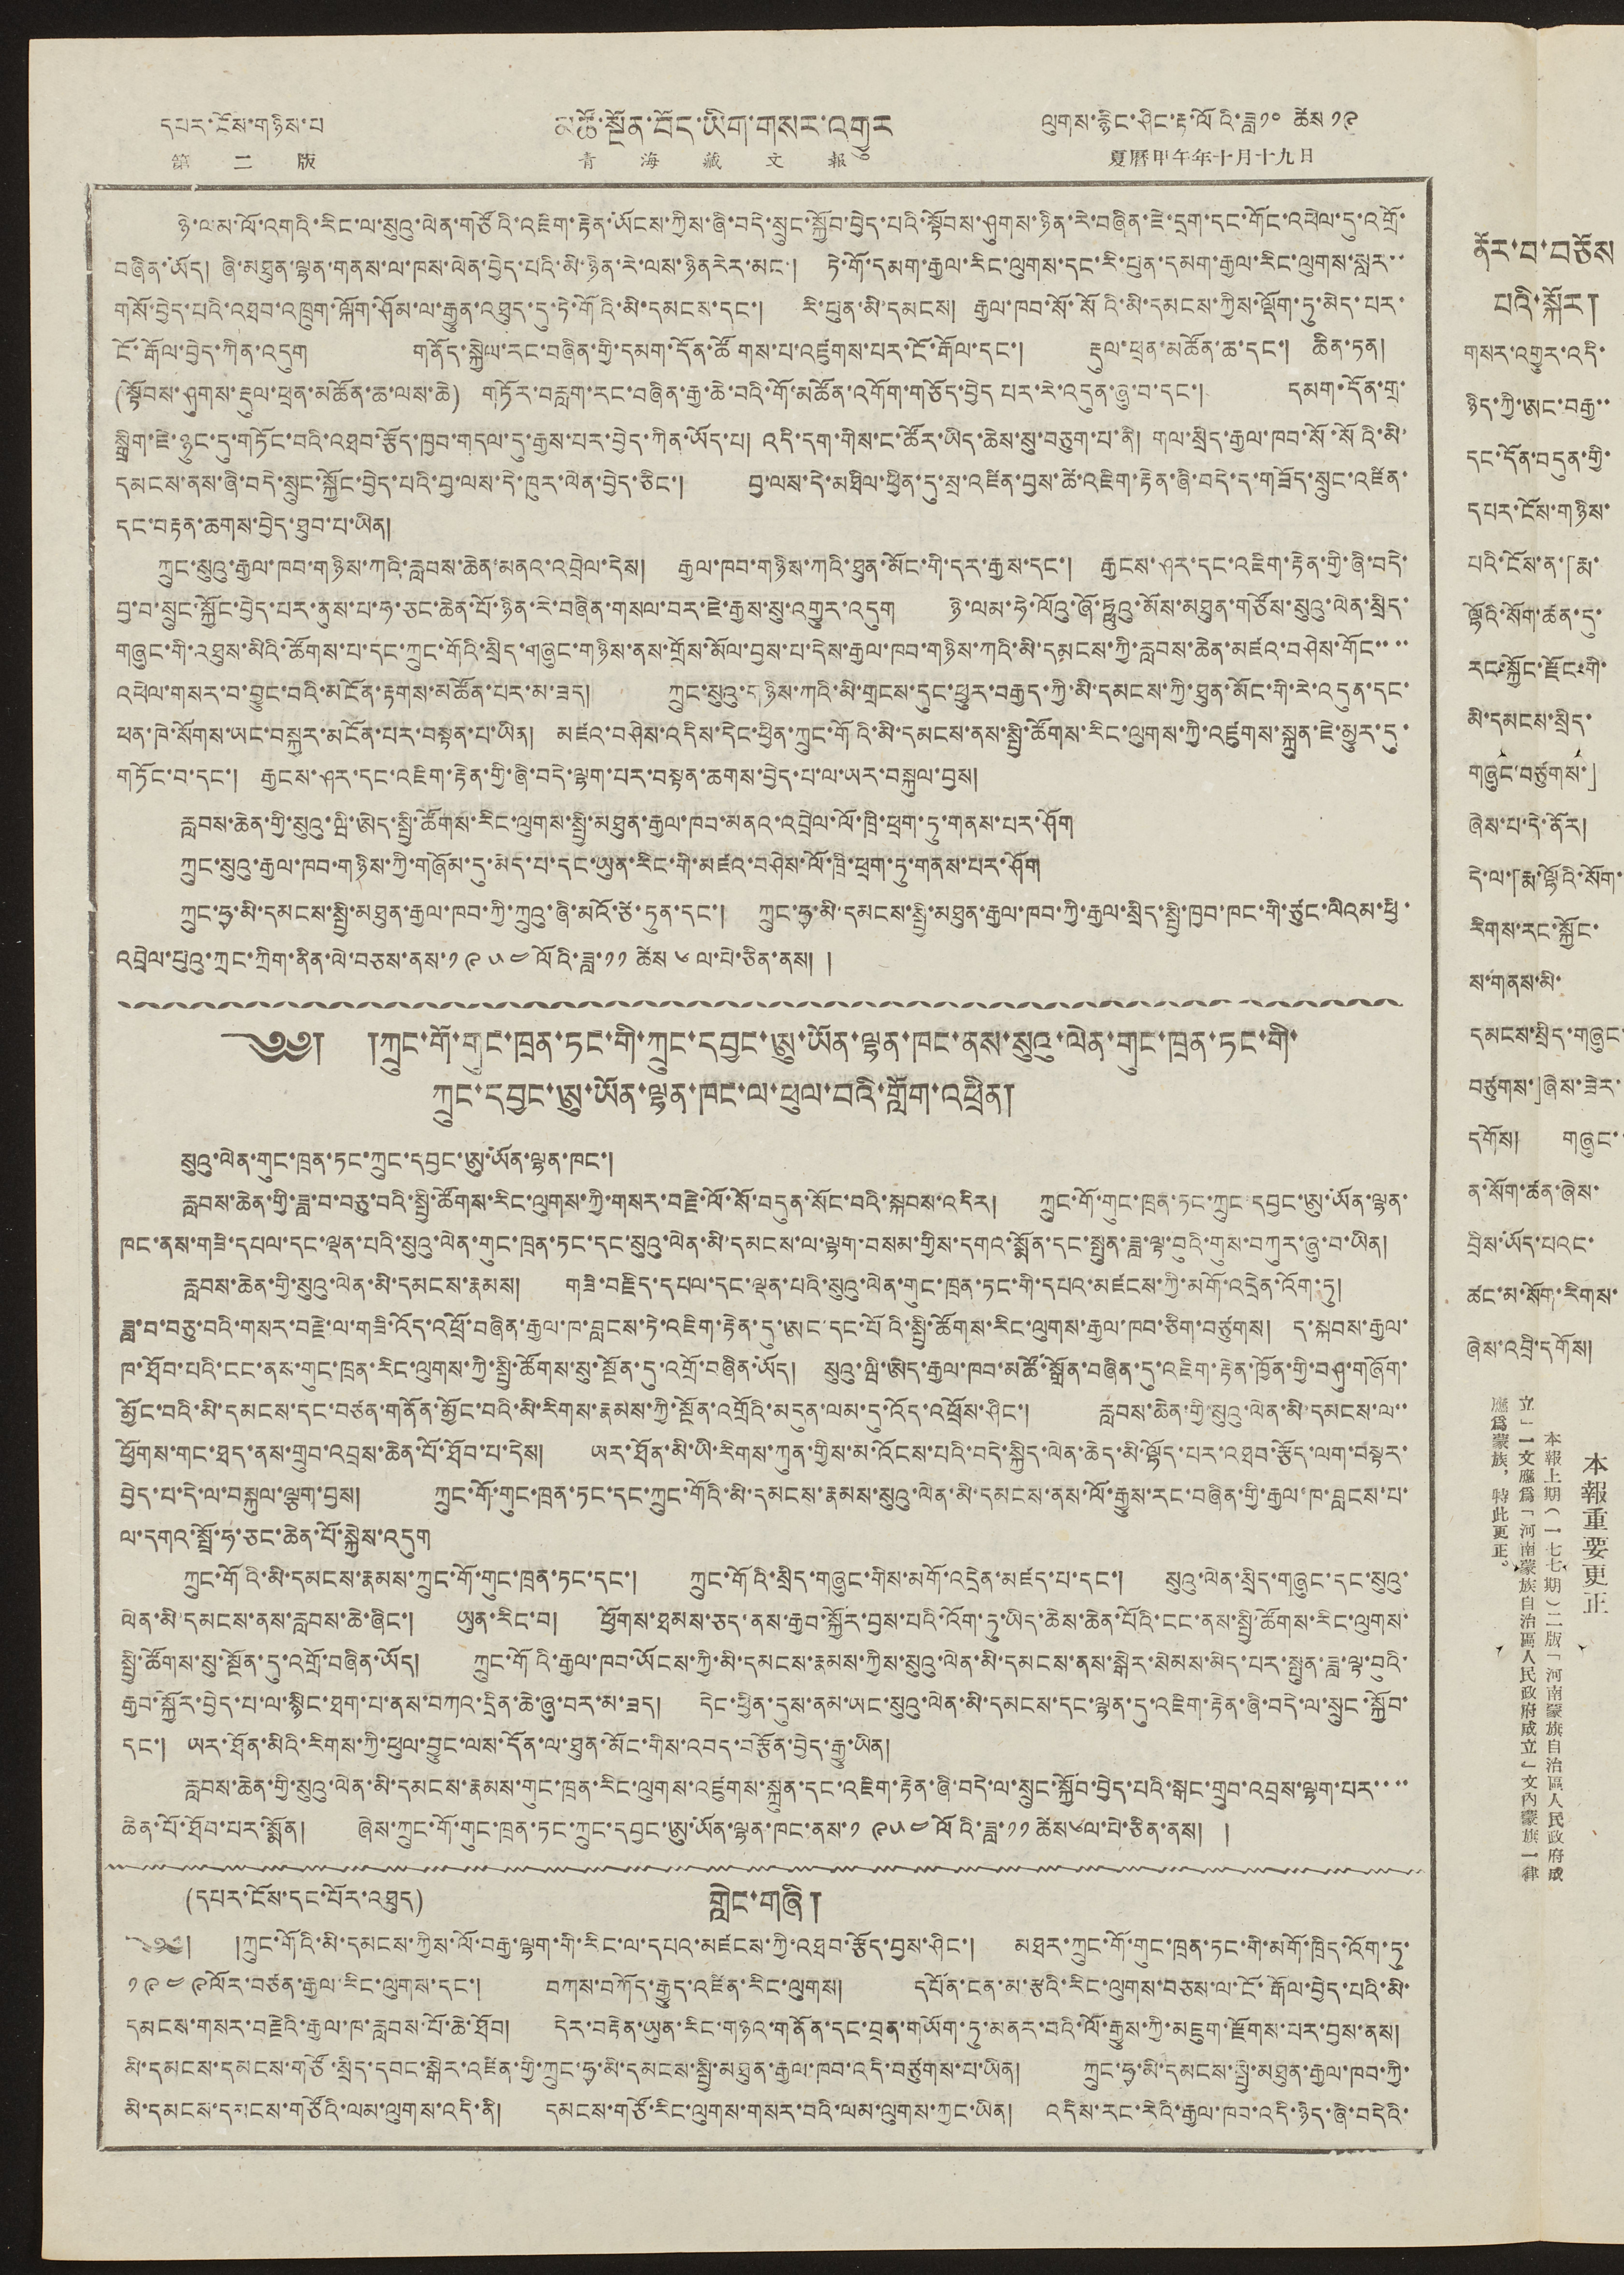དཔར་ངོས་གཉིས་པ མཚོ་སྔོན་བོད་ཡིག་གསར་འགྱུར ལུགས་རྙིང་ཤིང་རྟ་ལོའི་ཟླ༡༠ ཚེས ༡༩
第 二 版 青 海 藏 文 報 夏曆甲午年十月十九日
ཉེ་ལམ་ལོ་འགའི་རིང་ལ་སུའུ་ལེན་གཙོའི་འཇིག་རྟེན་ཡོངས་ཀྱིས་ཞི་བདེ་སྲུང་སྐྱོབ་བྱེད་པའི་སྟོབས་ཤུགས་ཉིན་རེ་བཞིན་ཇེ་དྲག་དང་གོང་འཕེལ་དུ་འགྲོ་
བཞིན་ཡོད། ཞི་མཐུན་ལྷན་གནས་ལ་ཁས་ལེན་བྱེད་པའི་མི་ཉིན་རེ་ལས་ཉིན རེར་མང་། ཏེ་གོ་དམག་རྒྱལ་རིང་ལུགས་དང་རི་ཕུན་དམག་རྒྱལ་རིང་ལུགས་སླར་་
གསོ་བྱེད་པའི་འཐབ་འཁྲུག་ལྐོག་ཤོམ་ལ་རྒྱུན་འཐུད་དུ་ཏེ་གོའི་མི་དམངས་དང་། རི་པུན་མི་དམངས། རྒྱལ་ཁབ་སོ་སོའི་མི་དམངས་ཀྱིས་ལྡོག་ཏུ་མེད་པར་
ངོ་རྒོལ་བྱེད་ཀིན་འདུག གནོད་སྐྱེལ་རང་བཞིན་གྱི་དམག་དོན་ཚོགས་པ་འཛུགས་པར་ངོ་རྒོལ་དང་། རྡུལ་ཕྲན་མཚོན་ཆ་དང་། ཆིན་ཏན།
(སྟོབས་ཤུགས་རྡུལ་ཕྲན་མཚོན་ཆ་ལས་ཆེ) གཏོར་བརླག་རང་བཞིན་རྒྱ་ཆེ་བའི་གོ་མཚོན་འགོག་གཅོད་བྱེད པར་རེ་འདུན་ཞུ་བ་དང་། དམག་དོན་གྲ་
སྒྲིག་ཇེ་ཉུང་དུ་གཏོང་བའི་འཐབ་རྩོད་ཁྱབ་གདལ་དུ་རྒྱས་པར་བྱེད་ཀིན་ཡོད་པ། འདི་དག་གིས་ང་ཚོར་ཡོད་ཆེས་སུ་བཅུག་པ་ནི། གལ་སྲིད་རྒྱལ་ཁབ་སོ་སོའི་མི་
དམངས་ནས་ཞི་བདེ་སྲུང་སྐྱོང་བྱེད་པའི་བྱ་ལས་དེ་ཁུར་ལེན་བྱེད་ཅིང་། བྱ་ལས་དེ་མཐོལ་ཕྱིན་དུ་སྲ་འཛིན་བྱས་ཚེ་འཇིག་རྟེན་ཞི་བདེ་ད་གཟོད་སྲུང་འཛིན་
དང་བརྟན་ཆགས་བྱེད་ཐུབ་པ་ཡིན།
ཀྲུང་སུའུ་རྒྱལ་ཁབ་གཉིས་ཀའི་རླབས་ཆེན་མནའ་འབྲེལ་དེས། རྒྱལ་ཁབ་གཉིས་ཀའི་ཐུན་མོང་གི་དར་རྒྱས་དང་། རྒྱངས་ཤར་དང་འཇིག་རྟེན་གྱི་ཞི་བདེ་
བྱ་བ་སྲུང་སྐྱོང་བྱེད་པར་ནུས་པ་ཧ་ཅང་ཆེན་པོ་ཉིན་རེ་བཞིན་གསལ་བར་ཇེ་རྒྱས་སུ་འགྱུར་འདུག ཉི་ལམ་ཧེ་ལོའུ་ཞོ་ཧྥུའུ་མོས་མཐུན་གཙོས་སུའུ་ལེན་སྲིད་
གཞུང་གི་འཐུས་མིའི་ཚོགས་པ་དང་ཀྲུང་གོའི་སྲིད་གཞུང་གཉིས་ནས་གྲོས་མོལ་བྱས་པ་དེས་རྒྱལ་ཁབ་གཉིས་ཀའི་མི་དམངས་ཀྱི་རླབས་ཆེན་མཛའ་བཤེས་གོང་་་་
འཕེལ་གསར་བ་བྱུང་བའི་མངོན་རྟགས་མཚོན་པར་མ་ཟད། ཀྲུང་སུའུ་གཉིས་ཀའི་མི་གྲངས་དུང་ཕྱུར་བརྒྱད་ཀྱི་མི་དམངས་ཀྱི་ཐུན་མོང་གི་རེ་འདུན་དང་
ཕན་ཁེ་སོགས་ཡང་བསྐྱར་མངོན་པར་བསྟན་པ་ཡིན། མཛའ་བཤེས་འདིས་དེང་ཕྱིན་ཀྲུང་གོའི་མི་དམངས་ནས་སྤྱི་ཚོགས་རིང་ལུགས་ཀྱི་འཛུགས་སྐྲུན་ཇེ་མྱུར་དུ་
གཏོང་བ་དང་། རྒྱངས་ཤར་དང་འཇིག་རྟེན་གྱི་ཞི་བདེ་ལྷག་པར་བསྟན་ཆགས་བྱེད་པ་ལ་ཡར་བསྐུལ་བྱས།
རླབས་ཆེན་གྱི་སུའུ་ཝི་ཨེད་སྤྱི་ཚོགས་རིང་ལུགས་སྤྱི་མཐུན་རྒྱལ་ཁབ་མནའ་འབྲེལ་ལོ་ཁྲི་ཕྲག་ཏུ་གནས་པར་ཤོག
ཀྲུང་སུའུ་རྒྱལ་ཁབ་གཉིས་ཀྱི་གཞོམ་དུ་མེད་པ་དང་ཡུན་རིང་གི་མཛའ་བཤེས་ལོ་ཁྲི་ཕྲག་ཏུ་གནས་པར་ཤོག
ཀྲུང་ཧྭ་མི་དམངས་སྤྱི་མཐུན་རྒྱལ་ཁབ་ཀྱི་ཀྲུའུ་ཞི་མའོ་ཙེ་ཏུན་དང་། ཀྲུང་ཧྭ་མི་དམངས་སྤྱི་མཐུན་རྒྱལ་ཁབ་ཀྱི་རྒྱལ་སྲིད་སྤྱི་ཁྱབ་ཁང་གི་ཙུང་ལིའམ་ཕྱི་
འབྲེལ་པུའུ་ཀྲང་ཀྲིག་ནིན་ལེ་བཅས་ནས་༡ ༩ ༥ ༤ ལོའི་ཟླ་༡༡ ཚེས ༦ ལ་པེ་ཅིན་ནས། །
༄༅། །ཀྲུང་གོ་གུང་ཁྲན་ཏང་གི་ཀྲུང་དབྱང་ཨུ་ཡོན་ལྷན་ཁང་ནས་སུའུ་ལེན་གུང་ཁྲན་ཏང་གི་
ཀྲུང་དབྱང་ཨུ་ཡོན་ལྷན་ཁང་ལ་ཕུལ་བའི་གློག་འཕྲིན།
སུའུ་ལེན་གུང་ཁྲན་ཏང་ཀྲུང་དབྱང་ཨུ་ཡོན་ལྷན་ཁང་།
རླབས་ཆེན་གྱི་ཟླ་བ་བཅུ་བའི་སྤྱི་ཚོགས་རིང་ལུགས་ཀྱི་གསར་བརྗེ་ལོ་སོ་བདུན་སོང་བའི་སྐབས་འདིར། ཀྲུང་གོ་གུང་ཁྲན་ཏང་ཀྲུང་དབྱང་ཨུ་ཡོན་ལྷན་
ཁང་ནས་གཟི་དཔལ་དང་ལྡན་པའི་སུའུ་ལེན་གུང་ཁྲན་ཏང་དང་སུའུ་ལེན་མི་དམངས་ལ་ལྷག་བསམ་གྱིས་དགའ་སྨོན་དང་སྤུན་ཟླ་ལྟ་བུའི་གུས་བཀུར་ཞུ་བ་ཡིན།
རླབས་ཆེན་གྱི་སུའུ་ལེན་མི་དམངས་རྣམས། གཟི་བརྗིད་དཔལ་དང་ལྡན་པའི་སུའུ་ལེན་གུང་ཁྲན་ཏང་གི་དཔའ་མཛངས་ཀྱི་མགོ་འདྲེན་འོག་ཏུ།
ཟླ་བ་བཅུ་བའི་གསར་བརྗེ་ལ་གཟི་འོད་འཕྲོ་བཞིན་རྒྱལ་ཁ་བླངས་ཏེ་འཇིག་རྟེན་དུ་ཨང་དང་པོའི་སྤྱི་ཚོགས་རིང་ལུགས་རྒྱལ་ཁབ་ཅིག་བཙུགས། ད་སྐབས་རྒྱལ་
ཁ་ཐོབ་པའི་ངང་ནས་གུང་ཁྲན་རིང་ལུགས་ཀྱི་སྤྱི་ཚོགས་སུ་སྔོན་དུ་འགྲོ་བཞིན་ཡོད། སུའུ་ཝི་ཨེད་རྒྱལ་ཁབ་མཚོ་སྒྲོན་བཞིན་དུ་འཇིག་རྟེན་ཁྱོན་གྱི་བཤུ་གཞོག་
མྱོང་བའི་མི་དམངས་དང་བཙན་གནོན་མྱོང་བའི་མི་རིགས་རྣམས་ཀྱི་སྔོན་འགྲོའི་མདུན་ལམ་དུ་འོད་འཕྲོས་ཤིང་། རླབས་ཆེན་གྱི་སུའུ་ལེན་མི་དམངས་ལ་་
ཕྱོགས་གང་ཐད་ནས་གྲུབ་འབྲས་ཆེན་པོ་ཐོབ་པ་དེས། ཡར་ཐོན་མི་ཡི་རིགས་ཀུན་གྱིས་མ་འོངས་པའི་བདེ་སྐྱིད་ལེན་ཆེད་མི་ལྷོད་པར་འཐབ་རྩོད་ལག་བསྟར་
བྱེད་པ་དེ་ལ་བསྐུལ་ལྕག་བྱས། ཀྲུང་གོ་གུང་ཁྲན་ཏང་དང་ཀྲུང་གོའི་མི་དམངས་རྣམས་སུའུ་ལེན་མི་དམངས་ནས་ལོ་རྒྱུས་རང་བཞིན་གྱི་རྒྱལ་ཁ་བླངས་པ་
ལ་དགའ་སྤྲོ་ཧ་ཅང་ཆེན་པོ་སྐྱས་འདུག
ཀྲུང་གོའི་མི་དམངས་རྣམས་ཀྲུང་གོ་གུང་ཁྲན་ཏང་དང་། ཀྲུང་གོའི་སྲིད་གཞུང་གིས་མགོ་འདྲེན་མཛད་པ་དང་། སུའུ་ལེན་སྲིད་གཞུང་དང་སུའུ་
ལེན་མི་དམངས་ནས་རླབས་ཆེ་ཞིང་། ཡུན་རིང་བ། ཕྱོགས་ཐམས་ཅད་ནས་རྒྱབ་སྐྱོར་བྱས་པའི་འོག་ཏུ་ཡོད་ཆེས་ཆེན་པོའི་ངང་ནས་སྤྱི་ཚོགས་རིང་ལུགས་
སྤྱི་ཚོགས་སུ་སྔོན་དུ་འགྲོ་བཞིན་ཡོད། ཀྲུང་གོའི་རྒྱལ་ཁབ་ཡོངས་ཀྱི་མི་དམངས་རྣམས་ཀྱིས་སུའུ་ལེན་མི་དམངས་ནས་སྒེར་སེམས་མེད་པར་སྤུན་ཟླ་ལྟ་བུའི་
རྒྱབ་སྐྱོར་བྱེད་པ་ལ་སྙིང་ཐག་པ་ནས་བཀའ་དྲིན་ཆེ་ཞུ་བར་མ་ཟད། དེང་ཕྱིན་དུས་ནམ་ཡང་སུའུ་ལེན་མི་དམངས་དང་ལྷན་དུ་འཇིག་རྟེན་ཞི་བདེ་ལ་སྲུང་སྐྱོབ་
དང་། ཡར་ཐོན་མིའི་རིགས་ཀྱི་ཕུལ་བྱུང་ལས་དོན་ལ་ཐུན་མོང་གིས་འབད་བརྩོན་བྱེད་རྒྱུ་ཡིན།
རླབས་ཆེན་གྱི་སུའུ་ལེན་མི་དམངས་རྣམས་གུང་ཁྲན་རིང་ལུགས་འཛུགས་སྐྲུན་དང་འཇིག་རྟེན་ཞི་བདེ་ལ་སྲུང་སྐྱོབ་བྱེད་པའི་སྒང་གྲུབ་འབྲས་ལྷག་པར་་་་
ཆེན་པོ་ཐོབ་པར་སྨོན། ཞེས་ཀྲུང་གོ་གུང་ཁྲན་ཏང་ཀྲུང་དབྱང་ཨུ་ཡོན་ལྷན་ཁང་ནས་༡ ༩ ༥ ༤ ལོའི་ཟླ་༡༡ ཚེས༦ལ་པེ་ཅིན་ནས། །
(དཔར་ངོས་དང་པོར་འཐུད)
གླེང་གཞི།
༄༅། །ཀྲུང་གོའི་མི་དམངས་ཀྱིས་ལོ་བརྒྱ་ལྷག་གི་རིང་ལ་དཔའ་མཛངས་ཀྱི་འཐབ་རྩོད་བྱས་ཤིང་། མཐར་ཀྲུང་གོ་གུང་ཁྲན་ཏང་གི་མགོ་ཁྲིད་འོག་ཏུ་
༡ ༩ ༥ ༩ ལོར་བཙན་རྒྱལ་རིང་ལུགས་དང་། བཀས་བཀོད་རྒྱུད་འཛིན་རིང་ལུགས། དཔོན་ངན་མ་རྩའི་རིང་ལུགས་བཅས་ལ་ངོ་རྒོལ་བྱེད་པའི་མི་
དམངས་གསར་བརྗེའི་རྒྱལ་ཁ་རླབས་པོ་ཆེ་ཐོབ། དེར་བརྟེན་ཡུན་རིང་གཉའ་གནོན་དང་བྲན་གཡོག་ཏུ་མནར་བའི་ལོ་རྒྱུས་ཀྱི་མཇུག་རྫོགས་པར་བྱས་ནས།
མི་དམངས་དམངས་གཙོ་སྲིད་དབང་སྒེར་འཛིན་གྱི་ཀྲུང་ཧྭ་མི་དམངས་སྤྱི་མཐུན་རྒྱལ་ཁབ་འདི་བཙུགས་པ་ཡིན། ཀྲུང་ཧྭ་མི་དམངས་སྤྱི་མཐུན་རྒྱལ་ཁབ་ཀྱི་
མི་དམངས་དམངས་གཙོའི་ལམ་ལུགས་འདི་ནི། དམངས་གཙོ་རིང་ལུགས་གསར་བའི་ལམ་ལུགས་ཀྱང་ཡིན། འདིས་རང་རེའི་རྒྱལ་ཁབ་འདི་ཉིད་ཞི་བདེའི་
ནོར་བ་བཅོས
པའི་སྐོར།
གསར་འགྱུར་འདི་
ཉིད་ཀྱི་ཨང་བརྒྱ་་
དང་དོན་བདུན་གྱི་
དཔར་ངོས་གཉིས་
པའི་ངོས་ན་「རྨ་
ལྷོའི་སོག་ཚན་དུ་
རང་སྐྱོང་རྫོང་གི་
མི་དམངས་སྲིད་
གཞུང་བཙུགས་」
ཞེས་པ་དེ་ནོར།
དེ་ལ་「རྨ་ལྷོའི་སོག་
རིགས་རང་སྐྱོང་
ས་གནས་མི་
དམངས་སྲིད་གཞུང་
བཙུགས་」ཞེས་ཟེར་་
དགོས། གཞུང་་
ན་སོག་ཚན་ཞེས་
བྲིས་ཡོད་པའང་
ཚང་མ་སོག་རིགས་
ཞེས་འབྲི་དགོས།
本報重要更正
本報上期（一七七期）二版「河南蒙旗自治區人民政府成
立」一文應爲「河南蒙族自治區人民政府成立」文內蒙旗一律
應爲蒙族，特此更正。
